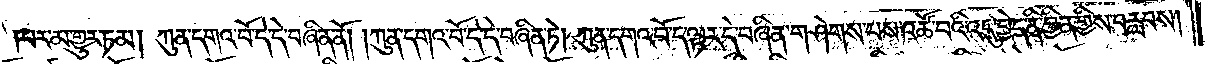པར་མ་གྱུར་ཏམ། ཀུན་དགའ་བོ་དེ་དེ་བཞིན་ནོ། །ཀུན་དགའ་བོ་དེ་དེ་བཞིན་ཏེ། ཀུན་དགའ་བོ་ད་ལྟར་དེ་བཞིན་གཤེགས་པས་འཚོ་བའི་འདུ་བྱེད་ནི་བྱིན་གྱིས་བརླབས།
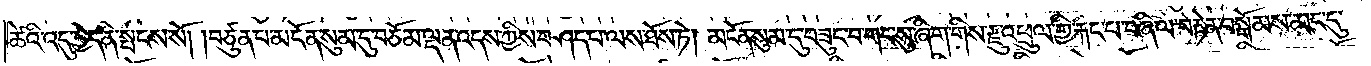ཚེའི་འདུ་བྱེད་ནི་སྤངས་སོ། །བཙུན་པ་མངོན་སུམ་དུ་བཅོམ་ལྡན་འདས་ཀྱིས་བཤད་པ་ལས་ཐོས་ཏེ། མངོན་སུམ་དུ་བཟུང་བ་གང་སུ་ཞིག་གིས་རྫུ་འཕྲུལ་གྱི་རྐང་པ་བཞི་ལ་བརྟེན་བསྒོམས་མང་དུ་
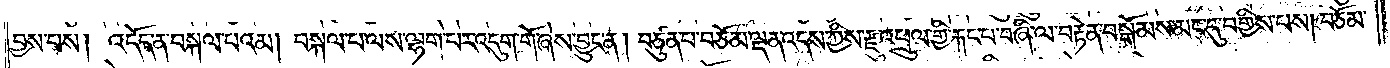བྱས་པས། འདོད་ན་བསྐལ་པའམ། བསྐལ་པ་ལས་ལྷག་པར་འདུག་གོ་ཞེས་བྱུང་ན། བཙུན་པ་བཅོམ་ལྡན་འདས་ཀྱིས་རྫུ་འཕྲུལ་གྱི་རྐང་པ་བཞི་ལ་བརྟེན་བསྒོམས་མང་དུ་བགྱིས་པས། བཅོམ་
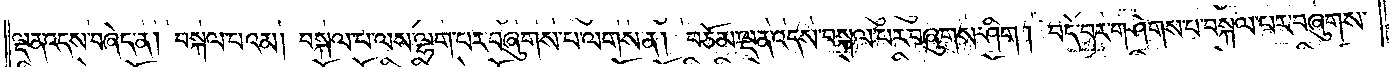ལྡན་འདས་བཞེད་ན། བསྐལ་པའམ། བསྐལ་པ་ལས་ལྷག་པར་བཞུགས་པ་ལགས་ན། བཅོམ་ལྡན་འདས་བསྐལ་པར་བཞུགས་ཤིག །བདེ་བར་གཤེགས་པ་བསྐལ་པར་བཞུགས་
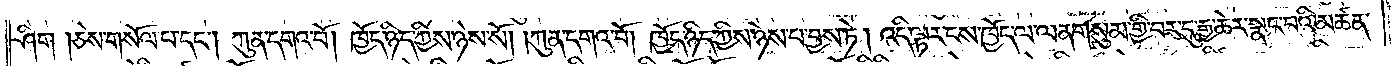ཤིག །ཅེས་གསོལ་པ་དང༌། ཀུན་དགའ་བོ། ཁྱོད་ཉིད་ཀྱིས་ཉེས་སོ། །ཀུན་དགའ་བོ། ཁྱོད་ཉིད་ཀྱིས་ཉེས་པ་བྱས་ཏེ། འདི་ལྟར་ངས་ཁྱོད་ལ་ལན་གསུམ་གྱི་བར་དུ་རྒྱ་ཆེར་སྣང་བའི་མཚན་
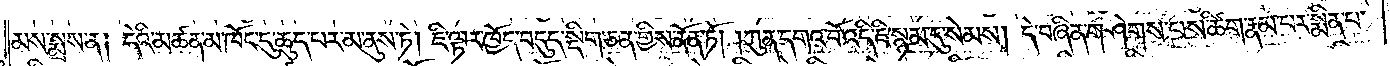མས་སྨྲས་ན། དེའི་མཚན་མ་ཁོང་དུ་ཆུད་པར་མ་ནུས་ཏེ། ཇི་ལྟར་ཁྱོད་བདུད་སྡིག་ཅན་གྱིས་ནོན་ཏོ། །ཀུན་དགའ་བོ་འདི་ཇི་སྙམ་དུ་སེམས། དེ་བཞིན་གཤེགས་པས་ཚིག་རྣམ་པར་སྨིན་པ་
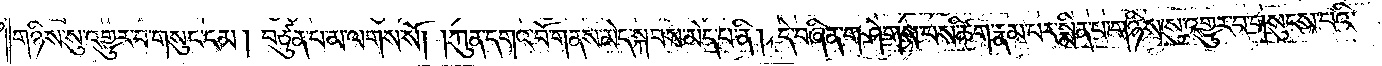གཉིས་སུ་འགྱུར་བ་གསུང་ངམ། བཙུན་པ་མ་ལགས་སོ། །ཀུན་དགའ་བོ་གནས་མེད་སྐབས་མེད་པ་ནི། དེ་བཞིན་གཤེགས་པས་ཚིག་རྣམ་པར་སྨིན་པ་གཉིས་སུ་འགྱུར་བ་གསུངས་པའི་
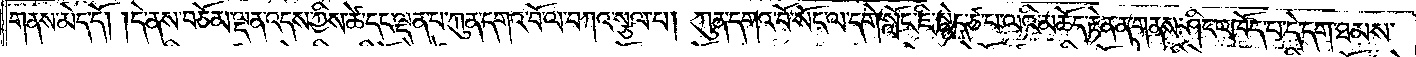གནས་མེད་དོ། །དེ་ནས་བཅོམ་ལྡན་འདས་ཀྱིས་ཚེ་དང་ལྡན་པ་ཀུན་དགའ་བོ་ལ་བཀའ་སྩལ་པ། ཀུན་དགའ་བོ་སོང་ལ་དགེ་སློང་ཇི་སྙེད་ཙ་པ་ལའི་མཆོད་རྟེན་ན་གནས་ཤིང་འཁོད་པ་དེ་དག་ཐམས་
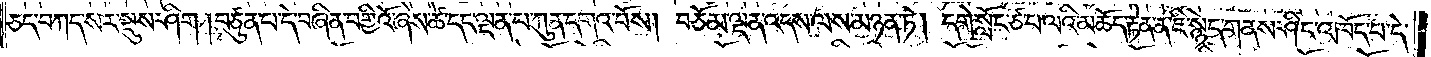ཅད་བཀད་སར་སྡུས་ཤིག །བཙུན་པ་དེ་བཞིན་བགྱིའོ་ཞེས་ཚེ་དང་ལྡན་པ་ཀུན་དགའ་བོས། བཅོམ་ལྡན་འདས་ལས་མཉན་ཏེ། དགེ་སློང་ཙ་པ་ལའི་མཆོད་རྟེན་ན་ཇི་སྙེད་གནས་ཤིང་འཁོད་པ་དེ་
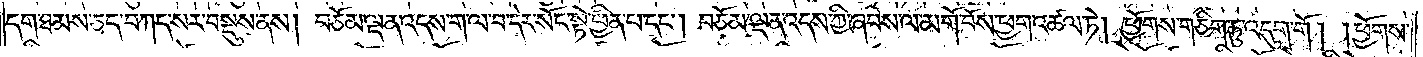དག་ཐམས་ཅད་བཀད་སར་བསྡུས་ནས། བཅོམ་ལྡན་འདས་གལ་བ་དེར་སོང་སྟེ་ཕྱིན་པ་དང༌། བཅོམ་ལྡན་འདས་ཀྱི་ཞབས་ལ་མགོ་བོས་ཕྱག་འཚལ་ཏེ། ཕྱོགས་གཅིག་ཏུ་འདུག་གོ། །ཕྱོགས་
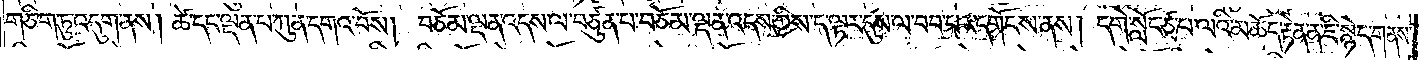གཅིག་ཏུ་འདུག་ནས། ཚེ་དང་ལྡན་པ་ཀུན་དགའ་བོས། བཅོམ་ལྡན་འདས་ལ་བཙུན་པ་བཅོམ་ལྡན་འདས་ཀྱིས་ད་ལྟར་དུས་ལ་བབ་པར་དགོངས་ནས། དགེ་སློང་ཙ་པ་ལའི་མཆོད་རྟེན་ན་ཇི་སྙེད་གནས་
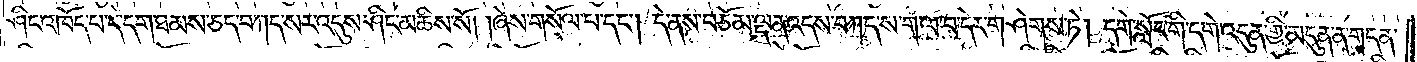ཤིང་འཁོད་པ་དེ་དག་ཐམས་ཅད་བཀད་སར་འདུས་ཤིང་མཆིས་སོ། །ཞེས་གསོལ་པ་དང༌། དེ་ནས་བཅོམ་ལྡན་འདས་བཀད་ས་གལ་བ་དེར་གཤེགས་ཏེ། དགེ་སློང་གི་དགེ་འདུན་གྱི་མདུན་ན་གདན་
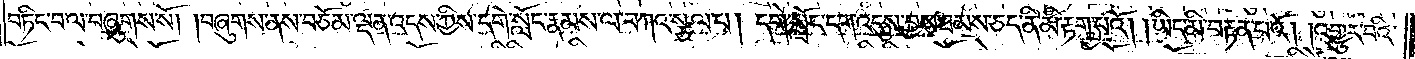བཏིང་བ་ལ་བཞུགས་སོ། །བཞུགས་ནས་བཅོམ་ལྡན་འདས་ཀྱིས་དགེ་སློང་རྣམས་ལ་བཀའ་སྩལ་པ། དགེ་སློང་དག་འདུས་བྱས་ཐམས་ཅད་ནི་མི་རྟག་པའོ། །ཡིད་མི་བརྟན་པའོ། །འགྱུར་བའི་
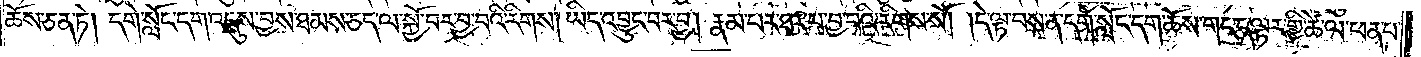ཆོས་ཅན་ཏེ། དགེ་སློང་དག་འདུས་བྱས་ཐམས་ཅད་ལ་སྐྱོ་བར་བྱ་བའི་རིགས། ཡིད་འབྱུང་བར་བྱ། རྣམ་པར་ཐར་པ་བྱ་བའི་རིགས་སོ། །དེ་ལྟ་བས་ན་དགེ་སློང་དག་ཆོས་གང་ད་ལྟར་གྱི་ཚེ་ལ་ཕན་པ་
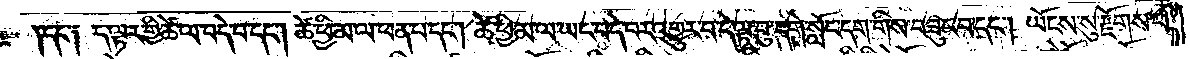དང༌༑ ད་ལྟར་གྱི་ཚེ་ལ་བདེ་བ་དང༌། ཚེ་ཕྱི་མ་ལ་ཕན་པ་དང༌། ཚེ་ཕྱི་མ་ལ་ཡང་བདེ་བར་འགྱུར་བ་དེ་ལྟ་བུ་དགེ་སློང་དག་གིས་བཟུང་བ་དང༌། ཡོངས་སུ་རྫོགས་པ་
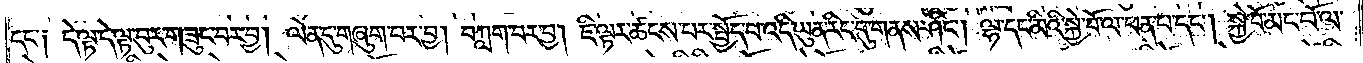དང༌༑ དེ་ལྟ་དེ་ལྟ་བུར་གཟུང་བར་བྱ། ལེན་དུ་གཞུག་པར་བྱ། བཀླག་པར་བྱ། ཇི་ལྟར་ཚངས་པར་སྤྱོད་པ་འདི་ཡུན་རིང་དུ་གནས་ཤིང༌། ལྷ་དང་མིའི་སྐྱེ་བོ་ལ་ཕན་པ་དང༌། སྐྱེ་བོ་མང་པོ་ལ་
